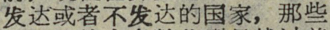发达或者不发达的国家，那些
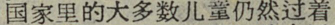国家里的大多数儿童仍然过着
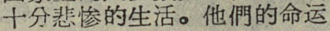十分悲惨的生活。他們的命运
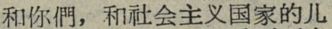和你們，和社会主义国家的儿
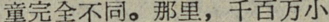童完全不同。那里，千百万小
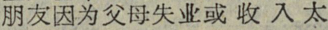朋友因为父母失业或收入太
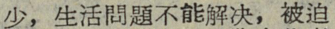少，生活問題不能解决，被迫
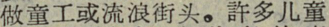做童工或流浪街头。許多儿童
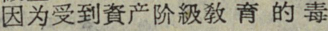因为受到資产阶級敎育的毒
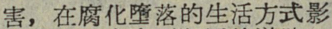害，在腐化堕落的生活方式影
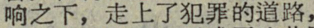响之下，走上了犯罪的道路，
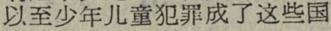以至少年儿童犯罪成了这些国
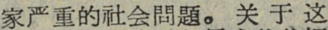家严重的社会問題。关于这
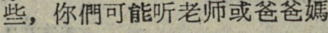些，你們可能听老师或爸爸媽
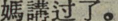媽講过了。
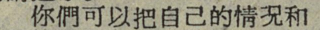你們可以把自己的情況和
